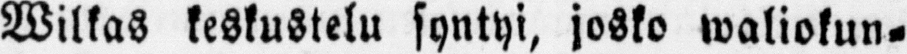Wilkas keskustelu syntyi, josko waliokun-
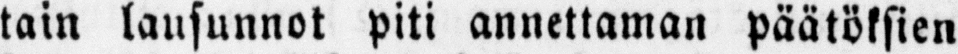tain lausunnot piti annettaman päätöksien
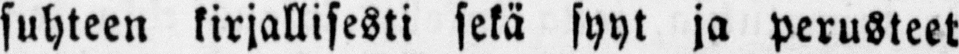suhteen kirjallisesti sekä syyt ja perusteet
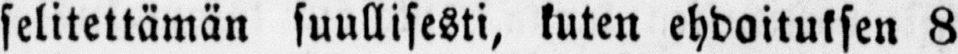selitettämän suullisesti, kuten ehdoituksen 8
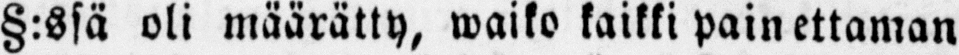§:ssä oli määrätty, Vaiko kaikki pain ettaman
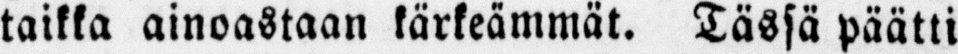taikka ainoastaan kärkeämmät. Tässä päätti
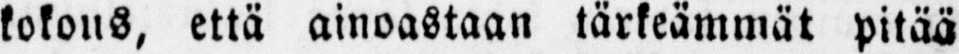kokous, että ainoastaan tärkeämmät pitää
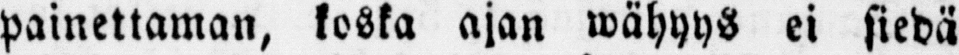painettaman, koska ajan wähyys ei siedä
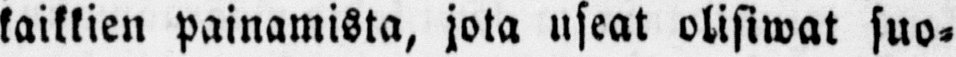kaikkien painamista, jota useat olisiwat suo-
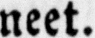neet.
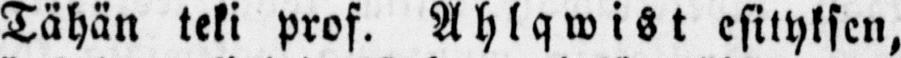Tähän teki prof. Ahlqmist esityksen,
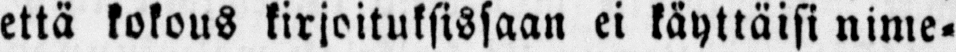että kokous kirjoituksissaan ei käyttäisi nime-
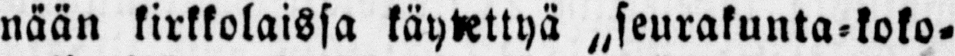nään kirkkolaissa käytettyä „seurakunta-koko-
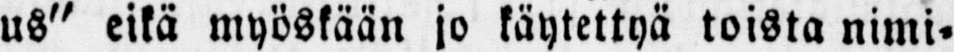us" eikä myöskään jo käytettyä toista nimi-
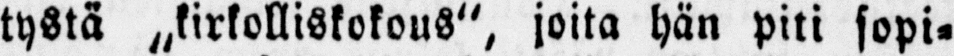tystä joita hän piti sopi-
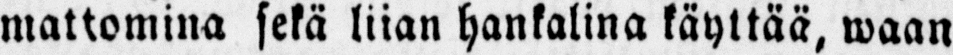mattomina sekä liian hankalina käyttää, waan
